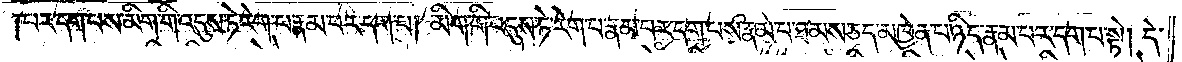པར་དག་པས་མིག་གི་འདུས་ཏེ་རེག་པ་རྣམ་པར་དག་པ། མིག་གི་འདུས་ཏེ་རེག་པ་རྣམ་པར་དག་པས་རྣམ་པ་ཐམས་ཅད་མཁྱེན་པ་ཉིད་རྣམ་པར་དག་པ་སྟེ། དེ་
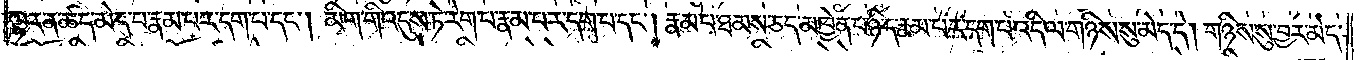ལྟར་ན་ཚད་མེད་པ་རྣམ་པར་དག་པ་དང༌། མིག་གི་འདུས་ཏེ་རེག་པ་རྣམ་པར་དག་པ་དང༌། རྣམ་པ་ཐམས་ཅད་མཁྱེན་པ་ཉིད་རྣམ་པར་དག་པ་འདི་ལ་གཉིས་སུ་མེད་དེ། གཉིས་སུ་བྱར་མེད་
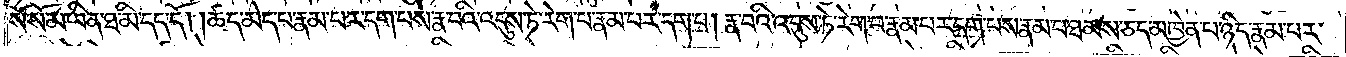སོ་སོ་མ་ཡིན་ཐ་མི་དད་དོ། །ཚད་མེད་པ་རྣམ་པར་དག་པས་རྣ་བའི་འདུས་ཏེ་རེག་པ་རྣམ་པར་དག་པ། རྣ་བའི་འདུས་ཏེ་རེག་པ་རྣམ་པར་དག་པས་རྣམ་པ་ཐམས་ཅད་མཁྱེན་པ་ཉིད་རྣམ་པར་
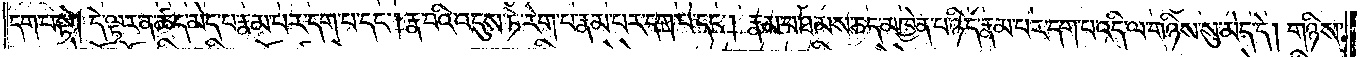དག་པ་སྟེ། དེ་ལྟར་ན་ཚད་མེད་པ་རྣམ་པར་དག་པ་དང༌། རྣ་བའི་འདུས་ཏེ་རེག་པ་རྣམ་པར་དག་པ་དང༌། རྣམ་པ་ཐམས་ཅད་མཁྱེན་པ་ཉིད་རྣམ་པར་དག་པ་འདི་ལ་གཉིས་སུ་མེད་དེ། གཉིས་
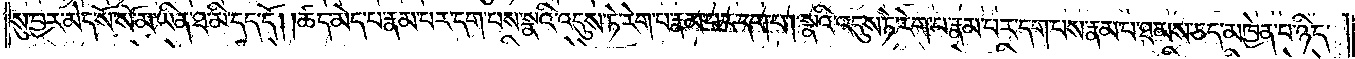སུ་བྱར་མེད་སོ་སོ་མ་ཡིན་ཐ་མི་དད་དོ། །ཚད་མེད་པ་རྣམ་པར་དག་པས་སྣའི་འདུས་ཏེ་རེག་པ་རྣམ་པར་དག་པ། སྣའི་འདུས་ཏེ་རེག་པ་རྣམ་པར་དག་པས་རྣམ་པ་ཐམས་ཅད་མཁྱེན་པ་ཉིད་
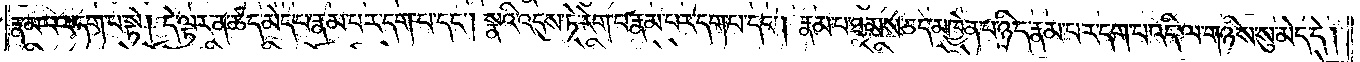རྣམ་པར་དག་པ་སྟེ། དེ་ལྟར་ན་ཚད་མེད་པ་རྣམ་པར་དག་པ་དང༌། སྣའི་འདུས་ཏེ་རེག་པ་རྣམ་པར་དག་པ་དང༌། རྣམ་པ་ཐམས་ཅད་མཁྱེན་པ་ཉིད་རྣམ་པར་དག་པ་འདི་ལ་གཉིས་སུ་མེད་དེ།
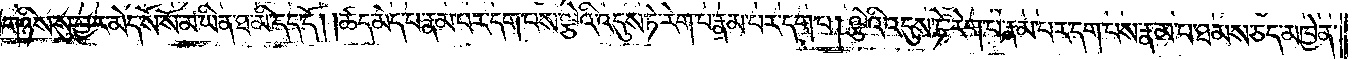གཉིས་སུ་བྱར་མེད་སོ་སོ་མ་ཡིན་ཐ་མི་དད་དོ། །ཚད་མེད་པ་རྣམ་པར་དག་པས་ལྕེའི་འདུས་ཏེ་རེག་པ་རྣམ་པར་དག་པ། ལྕེའི་འདུས་ཏེ་རེག་པ་རྣམ་པར་དག་པས་རྣམ་པ་ཐམས་ཅད་མཁྱེན་
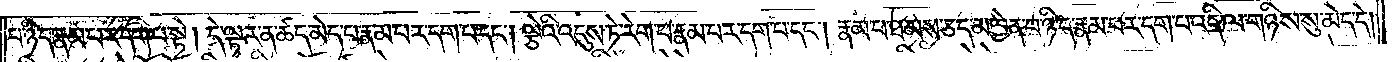པ་ཉིད་རྣམ་པར་དག་པ་སྟེ། དེ་ལྟར་ན་ཚད་མེད་པ་རྣམ་པར་དག་པ་དང༌། ལྕེའི་འདུས་ཏེ་རེག་པ་རྣམ་པར་དག་པ་དང༌། རྣམ་པ་ཐམས་ཅད་མཁྱེན་པ་ཉིད་རྣམ་པར་དག་པ་འདི་ལ་གཉིས་སུ་མེད་དེ།
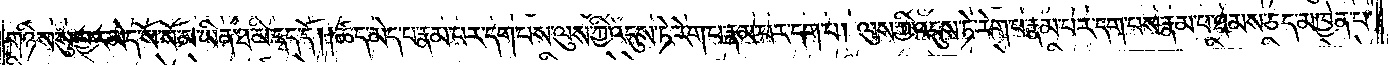གཉིས་སུ་བྱར་མེད་སོ་སོ་མ་ཡིན་ཐ་མི་དད་དོ། །ཚད་མེད་པ་རྣམ་པར་དག་པས་ལུས་ཀྱི་འདུས་ཏེ་རེག་པ་རྣམ་པར་དག་པ། ལུས་ཀྱི་འདུས་ཏེ་རེག་པ་རྣམ་པར་དག་པས་རྣམ་པ་ཐམས་ཅད་མཁྱེན་པ་
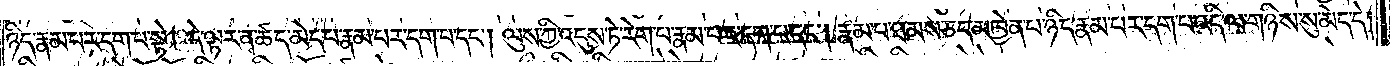ཉིད་རྣམ་པར་དག་པ་སྟེ། དེ་ལྟར་ན་ཚད་མེད་པ་རྣམ་པར་དག་པ་དང༌། ལུས་ཀྱི་འདུས་ཏེ་རེག་པ་རྣམ་པར་དག་པ་དང༌། རྣམ་པ་ཐམས་ཅད་མཁྱེན་པ་ཉིད་རྣམ་པར་དག་པ་འདི་ལ་གཉིས་སུ་མེད་དེ།
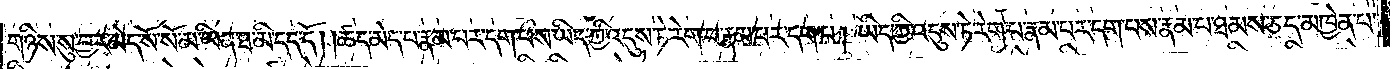གཉིས་སུ་བྱར་མེད་སོ་སོ་མ་ཡིན་ཐ་མི་དད་དོ། །ཚད་མེད་པ་རྣམ་པར་དག་པས་ཡིད་ཀྱི་འདུས་ཏེ་རེག་པ་རྣམ་པར་དག་པ། ཡིད་ཀྱི་འདུས་ཏེ་རེག་པ་རྣམ་པར་དག་པས་རྣམ་པ་ཐམས་ཅད་མཁྱེན་པ་
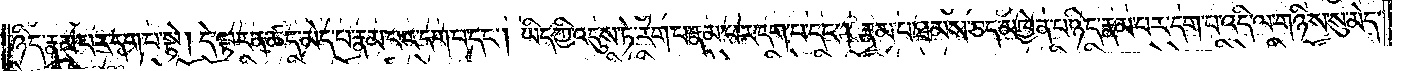ཉིད་རྣམ་པར་དག་པ་སྟེ། དེ་ལྟར་ན་ཚད་མེད་པ་རྣམ་པར་དག་པ་དང༌། ཡིད་ཀྱི་འདུས་ཏེ་རེག་པ་རྣམ་པར་དག་པ་དང༌། རྣམ་པ་ཐམས་ཅད་མཁྱེན་པ་ཉིད་རྣམ་པར་དག་པ་འདི་ལ་གཉིས་སུ་མེད་
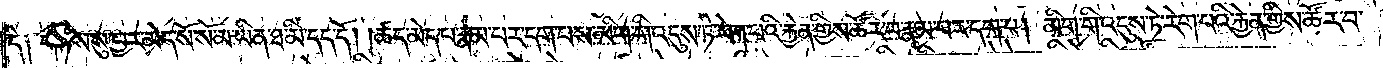དེ༑ གཉིས་སུ་བྱར་མེད་སོ་སོ་མ་ཡིན་ཐ་མི་དད་དོ། །ཚད་མེད་པ་རྣམ་པར་དག་པས་མིག་གི་འདུས་ཏེ་རེག་པའི་རྐྱེན་གྱིས་ཚོར་བ་རྣམ་པར་དག་པ། མིག་གི་འདུས་ཏེ་རེག་པའི་རྐྱེན་གྱིས་ཚོར་བ་
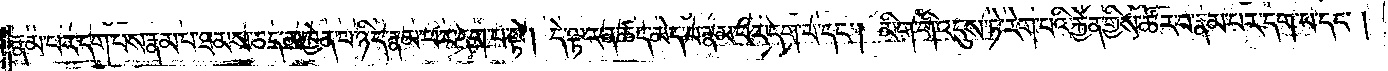རྣམ་པར་དག་པས་རྣམ་པ་ཐམས་ཅད་མཁྱེན་པ་ཉིད་རྣམ་པར་དག་པ་སྟེ། དེ་ལྟར་ན་ཚད་མེད་པ་རྣམ་པར་དག་པ་དང༌། མིག་གི་འདུས་ཏེ་རེག་པའི་རྐྱེན་གྱིས་ཚོར་བ་རྣམ་པར་དག་པ་དང༌།
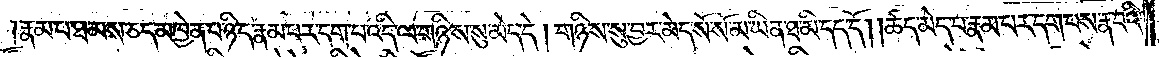རྣམ་པ་ཐམས་ཅད་མཁྱེན་པ་ཉིད་རྣམ་པར་དག་པ་འདི་ལ་གཉིས་སུ་མེད་དེ། གཉིས་སུ་བྱར་མེད་སོ་སོ་མ་ཡིན་ཐ་མི་དད་དོ། །ཚད་མེད་པ་རྣམ་པར་དག་པས་རྣ་བའི་
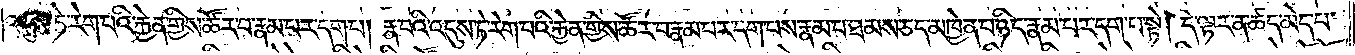འདུས་ཏེ་རེག་པའི་རྐྱེན་གྱིས་ཚོར་བ་རྣམ་པར་དག་པ། རྣ་བའི་འདུས་ཏེ་རེག་པའི་རྐྱེན་གྱིས་ཚོར་བ་རྣམ་པར་དག་པས་རྣམ་པ་ཐམས་ཅད་མཁྱེན་པ་ཉིད་རྣམ་པར་དག་པ་སྟེ། དེ་ལྟར་ན་ཚད་མེད་པ་
